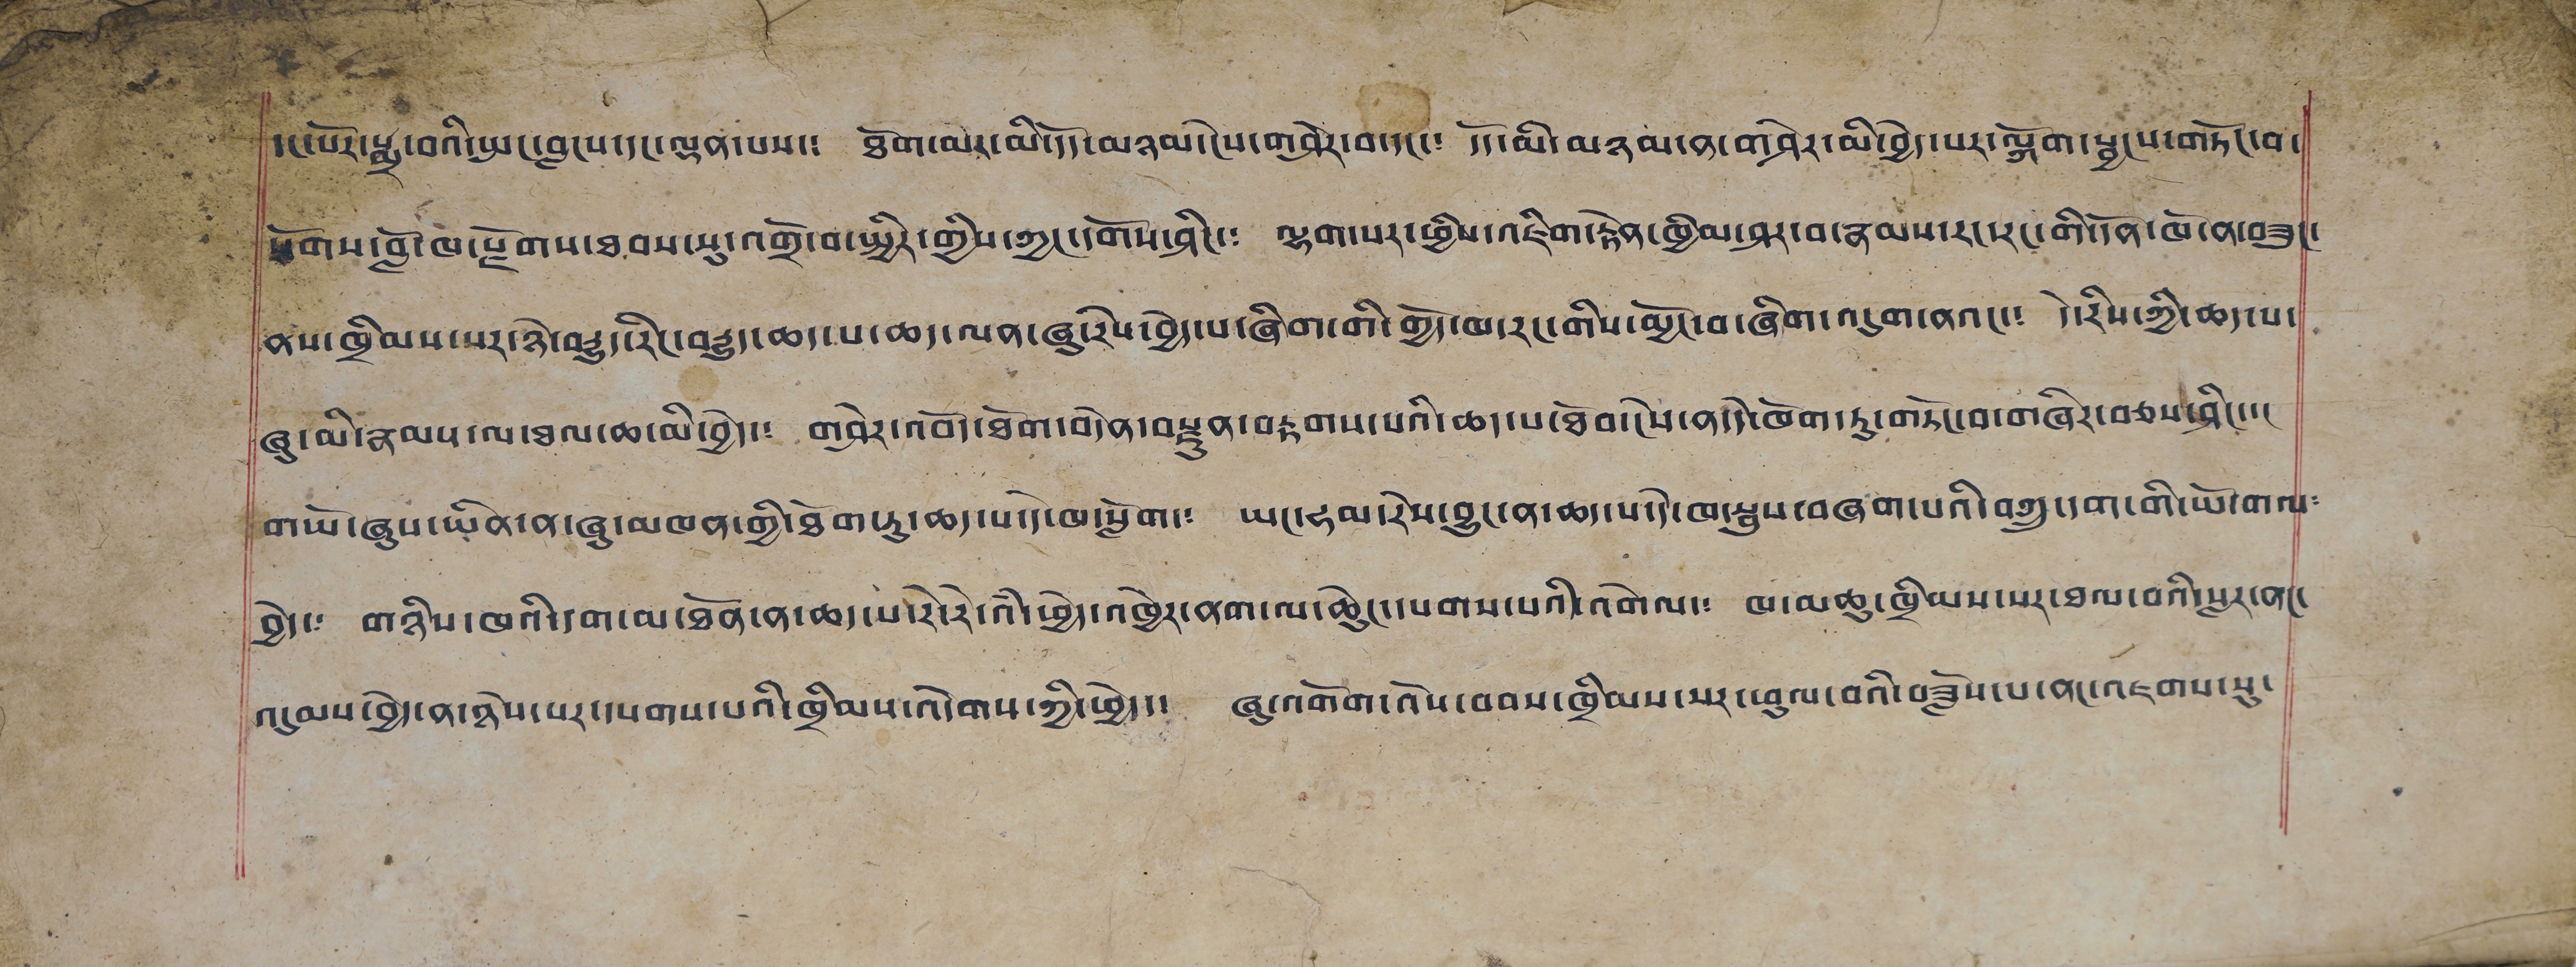དང་སོར་སྨྲ་བའི་སྤང་བླངས་དང་ལྡན་པས་༴ ཐོག་མར་མི་འདོད་མཉམ་ངེས་གཤེར་བ་དང་༴ དོད་མི་མཉམ་ན་གཤེར་མི་བྱེད་པར་སྐོག་སྦྱངས་གཏོང་བ་
སོགས་བློ་ཁ་རྫོགས་ཐབས་སུ་འགྲོ་བ་སྤྱིར་གྱིས་ཀྱང་དགོས་ཤིང་༴ ལྷག་པར་ཕྱིས་འཇིག་རྟེན་ཁྱིམ་ཤར་བ་རྣམས་རང་རང་གི་དོན་ཁོ་ན་བཟུང་
ནས་ཁྲིམས་པར་ཉེ་བརྒྱུད་རིང་བརྒྱུད་ཆད་པ་ཆད་ལན་ཞུ་རེས་བྱེད་པ་ཞིག་གི་གྱོད་བ་རང་གིས་མྱོང་བ་ཞིག་འདུག་ནའང་༴ དེ་རིས་ཀྱི་ཆད་པ་
ཞུ་མི་རྣམས་ལ་ཐལ་ཆ་མི་བྱེད་༴ གཤེར་འབོད་ཐོག་བདེན་བརྫུན་བརྟགས་པའི་ཆད་པ་ཐོབ་ངེས་ན་དེ་ཁོག་ཏུ་གཏོང་བ་གཞིར་བཅས་ཤིང་་།
གཡོ་ཞུས་ཡིན་ན་ཞུ་མཁན་གྱི་ཐོག་རུ་ཆད་པ་དེ་སློག་༴ ཡང་ཧམ་རེས་བྱུང་ན་ཆད་པ་དེ་ཁ་སྦུས་བཞག་པའི་བཀྲུ་དག་གི་ཡོ་གལ༴
བྱེད་༴ གཉིས་ཁའི་དག་མ་ཐོན་ན་ཆད་པ་རེ་རེ་འཾ་ཕྱེད་འཁྱེར་ནག་ལ་ཆེུང་དཔགས་པའི་འགེལ་༴ ཁ་མཆུ་ཁྲིམས་པར་ཐལ་བའི་སླར་ནང་
འདུམས་བྱེད་ན་ཉེས་པར་དཔགས་པའི་ཁྲིམས་འདེགས་ཀྱི་ཕྱེད་༴ ཞུ་འགོག་འོས་བབས་ཁྲིམས་པར་ཕུལ་བའི་བཟློས་པ་ནང་འཇགས་སུ་
